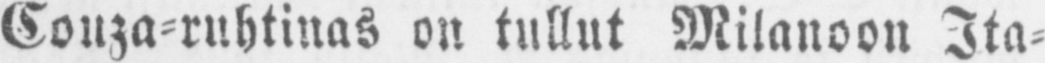Couza-ruhtinas on tullut Milanoon Ita-
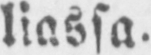liassa.
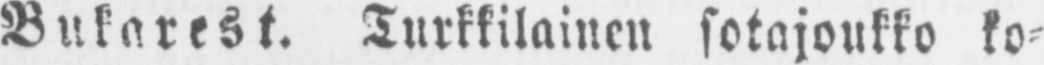Bukarest. Turkkilainen sotajoukko ko-
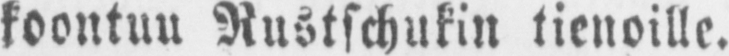koontuu Rustschukin tienoille.
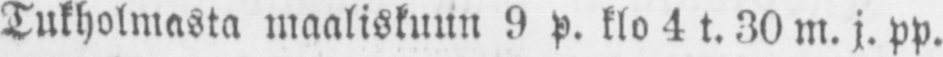Tukholmasta maaliskuun 9 p. klo 4 t.30m.j.pp.
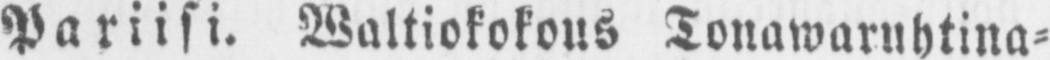Pariisi. Waltiokokous Tonawaruhtina-
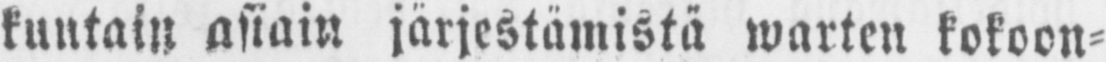kuntain asiain järjestämistä warten kokoon-
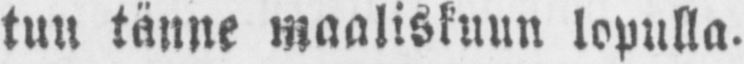tuu tänne maaliskuun lopulla.
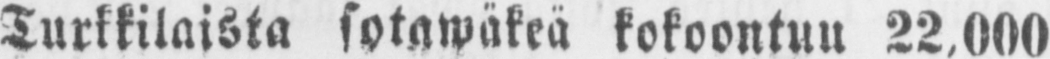Turkkilaista sotawäkeä kokoontuu 22.000
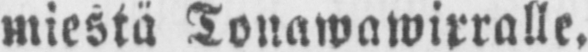miestä Tonawawirralle.
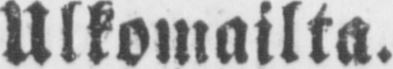Ulkomailta.
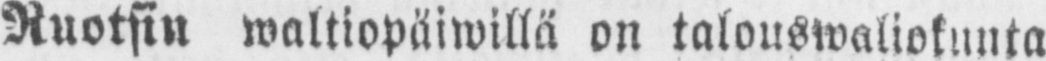Ruotsin waltiopäiwillä on talouswaliokunta
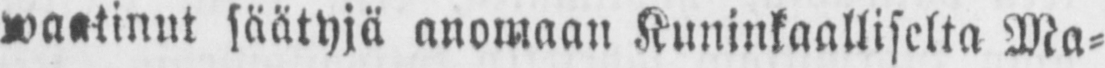waatinut säätyjä anomaan Kuninkaalliselta Ma-
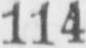114
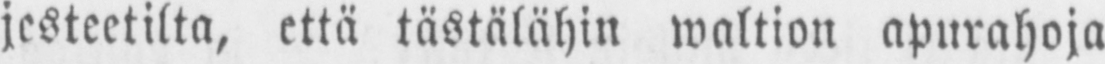jesteetilta, että tästälähin waltion apurahoja
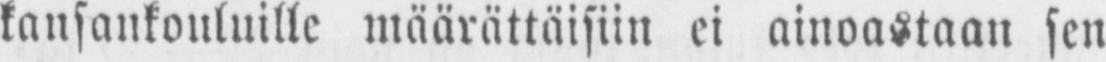kansankouluille määrättäisiin ei ainoastaan sen
